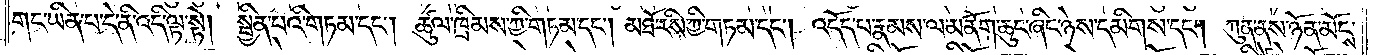གང་ཡིན་པ་དེ་ནི་འདི་ལྟ་སྟེ། སྦྱིན་པའི་གཏམ་དང༌། ཚུལ་ཁྲིམས་ཀྱི་གཏམ་དང༌། མཐོ་རིས་ཀྱི་གཏམ་དང༌། འདོད་པ་རྣམས་ལ་མནོག་ཆུང་ཞིང་ཉེས་དམིགས་དང༌། ཀུན་ནས་ཉོན་མོངས་
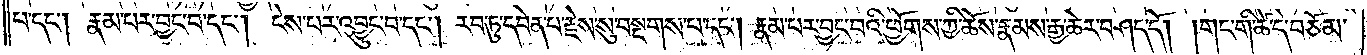པ་དང༌། རྣམ་པར་བྱང་བ་དང༌། ངེས་པར་འབྱུང་བ་དང༌། རབ་ཏུ་དབེན་པ་རྗེས་སུ་བསྔགས་པ་དང༌། རྣམ་པར་བྱང་བའི་ཕྱོགས་ཀྱི་ཆོས་རྣམས་རྒྱ་ཆེར་བཤད་དོ། །གང་གི་ཚེ་དེ་བཅོམ་
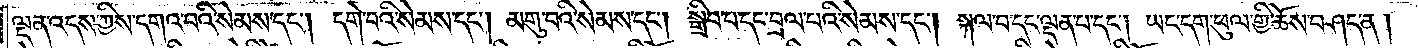ལྡན་འདས་ཀྱིས་དགའ་བའི་སེམས་དང༌། དགེ་བའི་སེམས་དང༌། མགུ་བའི་སེམས་དང༌། སྒྲིབ་པ་དང་བྲལ་པའི་སེམས་དང༌། སྐལ་བ་དང་ལྡན་པ་དང༌། ཡང་དག་ཕུལ་གྱི་ཆོས་བཤད་ན།
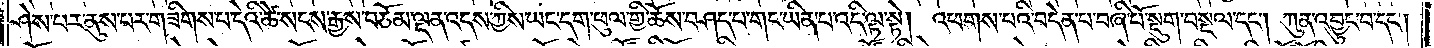ཤེས་པར་ནུས་པར་གཟིགས་པ་དེའི་ཚེ་སངས་རྒྱས་བཅོམ་ལྡན་འདས་ཀྱིས་ཡང་དག་ཕུལ་གྱི་ཆོས་བཤད་པ་གང་ཡིན་པ་འདི་ལྟ་སྟེ། འཕགས་པའི་བདེན་པ་བཞི་པོ་སྡུག་བསྔལ་དང༌། ཀུན་འབྱུང་བ་དང༌།
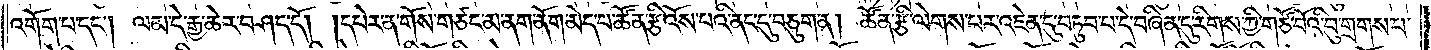འགོག་པ་དང༌། ལམ་དེ་རྒྱ་ཆེར་བཤད་དོ། །དཔེར་ན་གོས་གཙང་མ་ནག་ནོག་མེད་པ་ཚོན་རྩི་འོས་པའི་ནང་དུ་བཅུག་ན། ཚོན་རྩི་ལེགས་པར་འཇེན་དུ་བཏུབ་པ་དེ་བཞིན་དུ་རིགས་ཀྱི་གཙོ་བོའི་བུ་གྲགས་པ་
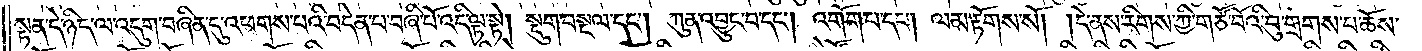སྟན་དེ་ཉིད་ལ་འདུག་བཞིན་དུ་འཕགས་པའི་བདེན་པ་བཞི་པོ་འདི་ལྟ་སྟེ། སྡུག་བསྔལ་དང༌། ཀུན་འབྱུང་བ་དང༌། འགོག་པ་དང༌། ལམ་རྟོགས་སོ། །དེ་ནས་རིགས་ཀྱི་གཙོ་བོའི་བུ་གྲགས་པ་ཆོས་
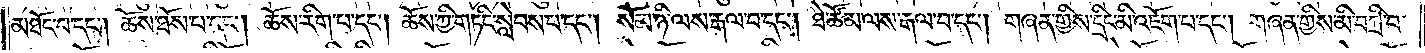མཐོང་བ་དང༌། ཆོས་ཐོས་པ་དང༌། ཆོས་རིག་པ་དང༌། ཆོས་ཀྱི་གཏིང་སླེབས་པ་དང༌། སོམ་ཉི་ལས་རྒལ་བ་དང༌། ཐེ་ཚོམ་ལས་རྒལ་བ་དང༌། གཞན་གྱིས་དྲིང་མི་འཇོག་པ་དང༌། གཞན་གྱིས་མི་བཀྲི་བ་
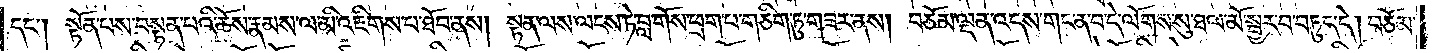དང༌། སྟོན་པས་བསྟན་པའི་ཆོས་རྣམས་ལ་མི་འཇིགས་པ་ཐོབ་ནས། སྟན་ལས་ལངས་ཏེ་བླ་གོས་ཕྲག་པ་གཅིག་ཏུ་གཟར་ནས། བཅོམ་ལྡན་འདས་གང་ན་བ་དེ་ལོགས་སུ་ཐལ་མོ་སྦྱར་བ་བཏུད་དེ། བཅོམ་
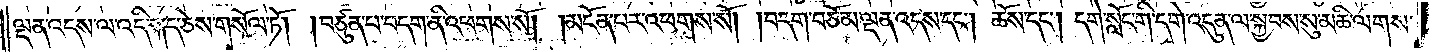ལྡན་འདས་ལ་འདི་སྐད་ཅེས་གསོལ་ཏོ། །བཙུན་པ་བདག་ནི་འཕགས་སོ། །མངོན་པར་འཕགས་སོ། །བདག་བཅོམ་ལྡན་འདས་དང༌། ཆོས་དང༌། དགེ་སློང་གི་དགེ་འདུན་ལ་སྐྱབས་སུ་མཆི་ལགས་
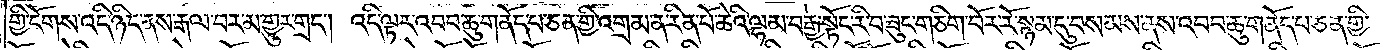གྱི་ངོགས་འདི་ཉིད་ནས་རྒལ་བར་མ་གྱུར་གྲང༌། འདི་ལྟར་འབབ་ཆུ་གནོད་པ་ཅན་གྱི་འགྲམ་ན་རིན་པོ་ཆེའི་ལྷམ་བརྒྱ་སྟོང་རི་བ་ཟུང་གཅིག་བོར་རོ་སྙམ་དུ་བསམས་ནས་འབབ་ཆུ་གནོད་པ་ཅན་གྱི་
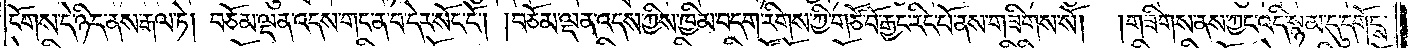ངོགས་དེ་ཉིད་ནས་རྒལ་ཏེ། བཅོམ་ལྡན་འདས་གང་ན་བ་དེར་སོང་ངོ༌། །བཅོམ་ལྡན་འདས་ཀྱིས་ཁྱིམ་བདག་རིགས་ཀྱི་གཙོ་བོ་རྒྱང་རིང་པོ་ནས་གཟིགས་སོ། །གཟིགས་ནས་ཀྱང་འདི་སྙམ་དུ་དགོངས་
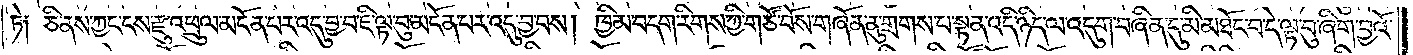ཏེ༑ ཅི་ནས་ཀྱང་ངས་རྫུ་འཕྲུལ་མངོན་པར་འདུ་བྱ་བ་ཇི་ལྟ་བུ་མངོན་པར་འདུ་བྱ་བས། ཁྱིམ་བདག་རིགས་ཀྱི་གཙོ་བོས་གཞོན་ནུ་གྲགས་པ་སྟན་འདི་ཉིད་ལ་འདུག་བཞིན་དུ་མི་མཐོང་བ་དེ་ལྟ་བུ་ཞིག་བྱའོ་
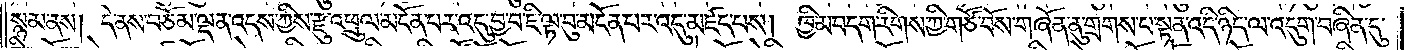སྙམ་ནས། དེ་ནས་བཅོམ་ལྡན་འདས་ཀྱིས་རྫུ་འཕྲུལ་མངོན་པར་འདུ་བྱ་བ་ཇི་ལྟ་བུ་མངོན་པར་འདུ་མཛད་པས། ཁྱིམ་བདག་རིགས་ཀྱི་གཙོ་བོས་གཞོན་ནུ་གྲགས་པ་སྟན་འདི་ཉིད་ལ་འདུག་བཞིན་དུ་
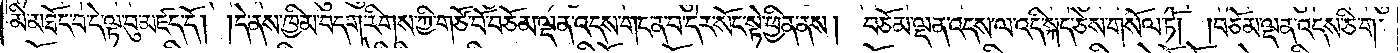མི་མཐོང་བ་དེ་ལྟ་བུ་མཛད་དོ། །དེ་ནས་ཁྱིམ་བདག་རིགས་ཀྱི་གཙོ་བོ་བཅོམ་ལྡན་འདས་གང་ན་བ་དེར་སོང་སྟེ་ཕྱིན་ནས། བཅོམ་ལྡན་འདས་ལ་འདི་སྐད་ཅེས་གསོལ་ཏོ། །བཅོམ་ལྡན་འདས་ཅིག་
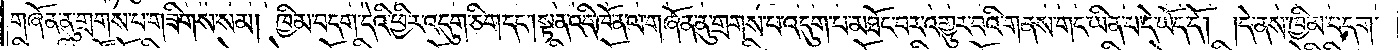གཞོན་ནུ་གྲགས་པ་གཟིགས་སམ། ཁྱིམ་བདག་དེའི་ཕྱིར་འདུག་ཅིག་དང༌། སྟན་འདི་ཁོ་ན་ལ་གཞོན་ནུ་གྲགས་པ་འདུག་པ་མཐོང་བར་འགྱུར་བའི་གནས་གང་ཡིན་པ་དེ་ཡོད་དོ། །དེ་ནས་ཁྱིམ་བདག་
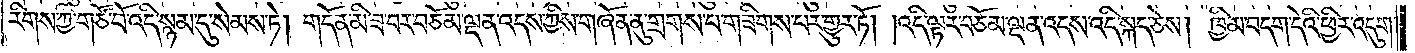རིགས་ཀྱི་གཙོ་བོ་འདི་སྙམ་དུ་སེམས་ཏེ། གདོན་མི་ཟ་བར་བཅོམ་ལྡན་འདས་ཀྱིས་གཞོན་ནུ་གྲགས་པ་གཟིགས་པར་གྱུར་ཏོ། །འདི་ལྟར་བཅོམ་ལྡན་འདས་འདི་སྐད་ཅེས། ཁྱིམ་བདག་དེའི་ཕྱིར་འདུག་
